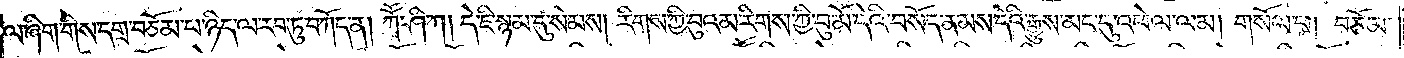ལ་ཞིག་གིས་དགྲ་བཅོམ་པ་ཉིད་ལ་རབ་ཏུ་བཀོད་ན། ཀཽ་ཤི་ཀ། དེ་ཇི་སྙམ་དུ་སེམས། རིགས་ཀྱི་བུའམ་རིགས་ཀྱི་བུ་མོ་དེའི་བསོད་ནམས་དེའི་རྒྱུས་མང་དུ་འཕེལ་ལམ། གསོལ་པ། བཅོམ་
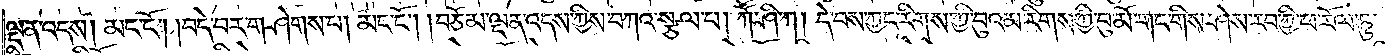ལྡན་འདས། མང་ངོ༌། །བདེ་བར་གཤེགས་པ། མང་ངོ༌། །བཅོམ་ལྡན་འདས་ཀྱིས་བཀའ་སྩལ་པ། ཀཽ་ཤི་ཀ། དེ་བས་ཀྱང་རིགས་ཀྱི་བུའམ་རིགས་ཀྱི་བུ་མོ་གང་གིས་ཤེས་རབ་ཀྱི་ཕ་རོལ་ཏུ་
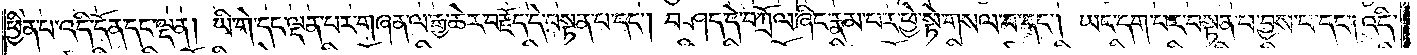ཕྱིན་པ་འདི་དོན་དང་ལྡན། ཡི་གེ་དང་ལྡན་པར་གཞན་ལ་རྒྱ་ཆེར་བརྗོད་དེ་བསྟན་པ་དང༌། བཤད་དེ་བཀྲོལ་ཞིང་རྣམ་པར་ཕྱེ་སྟེ་གསལ་བ་དང༌། ཡང་དག་པར་བསྟན་པ་བྱས་པ་དང༌། འདི་
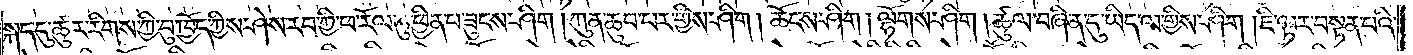སྐད་དུ་ཚུར་རིགས་ཀྱི་བུ་ཁྱོད་ཀྱིས་ཤེས་རབ་ཀྱི་ཕ་རོལ་ཏུ་ཕྱིན་པ་ཟུངས་ཤིག །ཀུན་ཆུབ་པར་གྱིས་ཤིག །ཆོངས་ཤིག །ལྷོགས་ཤིག །ཚུལ་བཞིན་དུ་ཡིད་ལ་གྱིས་ཤིག །ཇི་ལྟར་བསྟན་པའི་
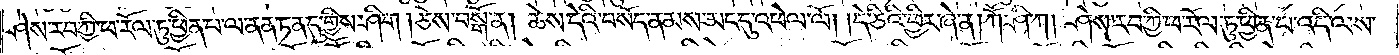ཤེས་རབ་ཀྱི་ཕ་རོལ་ཏུ་ཕྱིན་པ་ལ་ནན་ཏན་དུ་གྱིས་ཤིག། ཅེས་བསྒོ་ན། ཆེས་དེའི་བསོད་ནམས་མང་དུ་འཕེལ་ལོ། །དེ་ཅིའི་ཕྱིར་ཞེ་ན། ཀཽ་ཤི་ཀ། ཤེས་རབ་ཀྱི་ཕ་རོལ་ཏུ་ཕྱིན་པ་འདི་ལས་
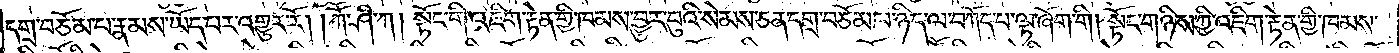དགྲ་བཅོམ་པ་རྣམས་ཡོད་པར་འགྱུར་རོ། །ཀཽ་ཤི་ཀ། སྟོང་གི་འཇིག་རྟེན་གྱི་ཁམས་བྱུར་བུའི་སེམས་ཅན་དགྲ་བཅོམ་པ་ཉིད་ལ་བཀོད་པ་ལྟ་ཞོག་གི །སྟོང་གཉིས་ཀྱི་འཇིག་རྟེན་གྱི་ཁམས་
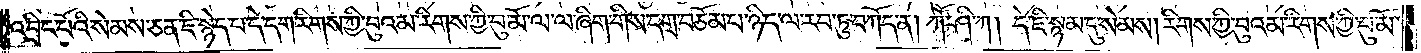འབྲིང་པོའི་སེམས་ཅན་ཇི་སྙེད་པ་དེ་དག་རིགས་ཀྱི་བུའམ་རིགས་ཀྱི་བུ་མོ་ལ་ལ་ཞིག་གིས་དགྲ་བཅོམ་པ་ཉིད་ལ་རབ་ཏུ་བཀོད་ན། ཀཽ་ཤི་ཀ། དེ་ཇི་སྙམ་དུ་སེམས། རིགས་ཀྱི་བུའམ་རིགས་ཀྱི་བུ་མོ་
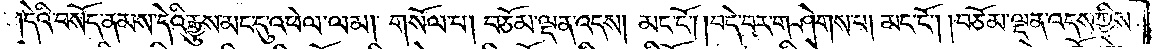དེའི་བསོད་ནམས་དེའི་རྒྱུས་མང་དུ་འཕེལ་ལམ། གསོལ་པ། བཅོམ་ལྡན་འདས། མང་ངོ༌། །བདེ་བར་གཤེགས་པ། མང་ངོ༌། །བཅོམ་ལྡན་འདས་ཀྱིས་
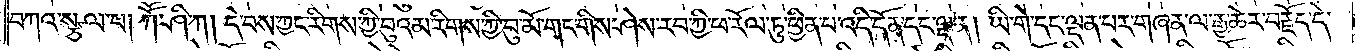བཀའ་སྩལ་པ། ཀཽ་ཤི་ཀ། དེ་བས་ཀྱང་རིགས་ཀྱི་བུའམ་རིགས་ཀྱི་བུ་མོ་གང་གིས་ཤེས་རབ་ཀྱི་ཕ་རོལ་ཏུ་ཕྱིན་པ་འདི་དོན་དང་ལྡན། ཡི་གེ་དང་ལྡན་པར་གཞན་ལ་རྒྱ་ཆེར་བརྗོད་དེ་
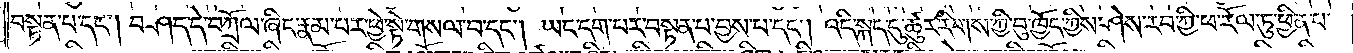བསྟན་པ་དང༌། བཤད་དེ་བཀྲོལ་ཞིང་རྣམ་པར་ཕྱེ་སྟེ་གསལ་བ་དང༌། ཡང་དག་པར་བསྟན་པ་བྱས་པ་དང༌། འདི་སྐད་དུ་ཆུར་རིགས་ཀྱི་བུ་ཁྱོད་ཀྱིས་ཤེས་རབ་ཀྱི་ཕ་རོལ་ཏུ་ཕྱིན་པ་
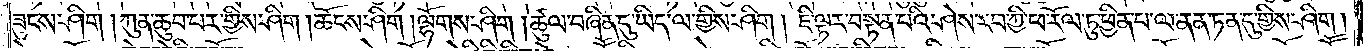ཟུངས་ཤིག །ཀུན་ཆུབ་པར་གྱིས་ཤིག །ཆོངས་ཤིག། ལྷོགས་ཤིག །ཚུལ་བཞིན་དུ་ཡིད་ལ་གྱིས་ཤིག །ཇི་ལྟར་བསྟན་པའི་ཤེས་རབ་ཀྱི་ཕ་རོལ་ཏུ་ཕྱིན་པ་ལ་ནན་ཏན་དུ་གྱིས་ཤིག།
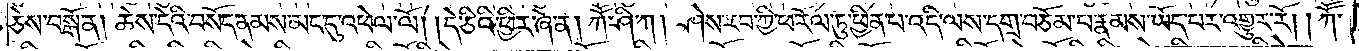ཅེས་བསྒོ་ན། ཆེས་དེའི་བསོད་ནམས་མང་དུ་འཕེལ་ལོ། །དེ་ཅིའི་ཕྱིར་ཞེ་ན། ཀཽ་ཤི་ཀ། ཤེས་རབ་ཀྱི་ཕ་རོལ་ཏུ་ཕྱིན་པ་འདི་ལས་དགྲ་བཅོམ་པ་རྣམས་ཡོད་པར་འགྱུར་རོ། །ཀཽ་
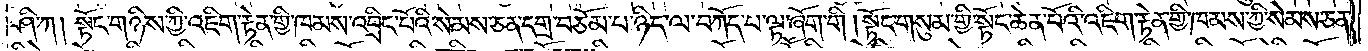ཤི་ཀ། སྟོང་གཉིས་ཀྱི་འཇིག་རྟེན་གྱི་ཁམས་འབྲིང་པོའི་སེམས་ཅན་དགྲ་བཅོམ་པ་ཉིད་ལ་བཀོད་པ་ལྟ་ཞོག་གི །སྟོང་གསུམ་གྱི་སྟོང་ཆེན་པོའི་འཇིག་རྟེན་གྱི་ཁམས་ཀྱི་སེམས་ཅན་
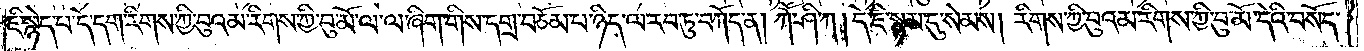ཇི་སྙེད་པ་དེ་དག་རིགས་ཀྱི་བུའམ་རིགས་ཀྱི་བུ་མོ་ལ་ལ་ཞིག་གིས་དགྲ་བཅོམ་པ་ཉིད་ལ་རབ་ཏུ་བཀོད་ན། ཀཽ་ཤི་ཀ། དེ་ཇི་སྙམ་དུ་སེམས། རིགས་ཀྱི་བུའམ་རིགས་ཀྱི་བུ་མོ་དེའི་བསོད་
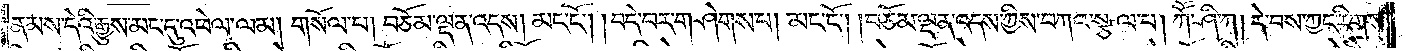ནམས་དེའི་རྒྱུས་མང་དུ་འཕེལ་ལམ། གསོལ་པ། བཅོམ་ལྡན་འདས། མང་ངོ༌། །བདེ་བར་གཤེགས་པ། མང་ངོ༌། །བཅོམ་ལྡན་འདས་ཀྱིས་བཀའ་སྩལ་པ། ཀཽ་ཤི་ཀ། དེ་བས་ཀྱང་རིགས་
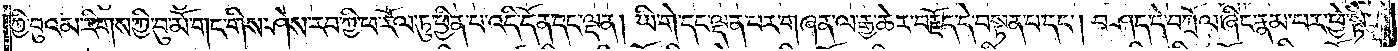ཀྱི་བུའམ་རིགས་ཀྱི་བུ་མོ་གང་གིས་ཤེས་རབ་ཀྱི་ཕ་རོལ་ཏུ་ཕྱིན་པ་འདི་དོན་དང་ལྡན། ཡི་གེ་དང་ལྡན་པར་གཞན་ལ་རྒྱ་ཆེར་བརྗོད་དེ་བསྟན་པ་དང༌། བཤད་དེ་བཀྲོལ་ཞིང་རྣམ་པར་ཕྱེ་སྟེ་
